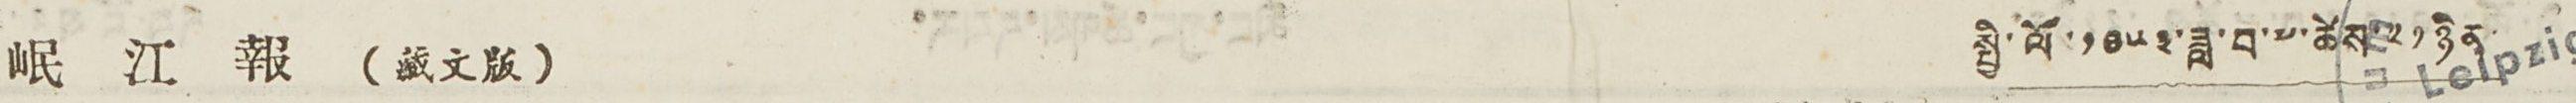岷 江 報 （藏文版） སྤྱི་ལོ་༡༩༥༣་ཟླ་བ་༧་ཚེས་༢༡ཉིན་
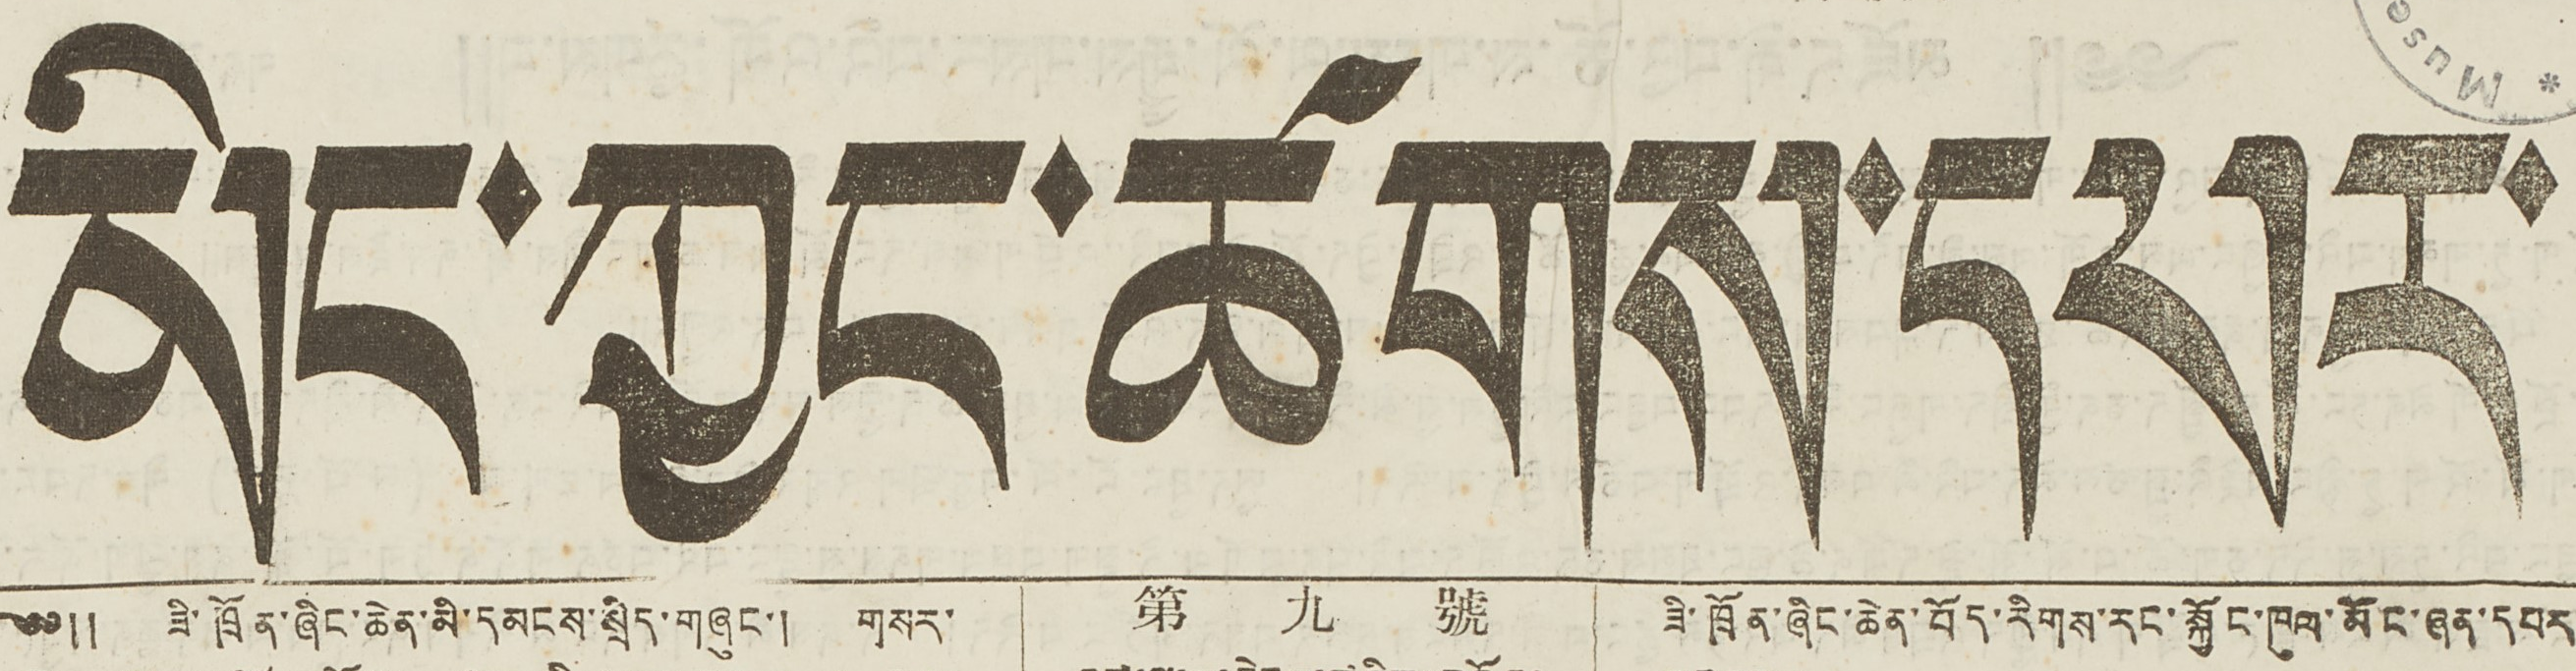མིང་ཀྱང་ཚགས་དཔར་
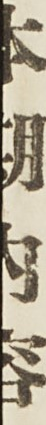本 期 內 容
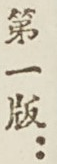第一版：
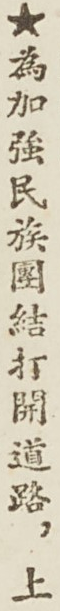★爲加強民族團結打開道路，上
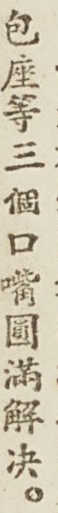包座等三個口嘴圓滿解決
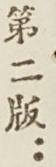第二版：
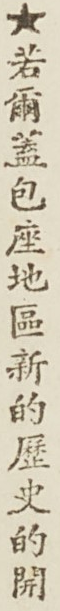★若爾蓋包座地區新的歷史開
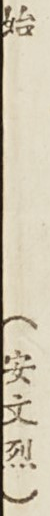始 （安文烈）
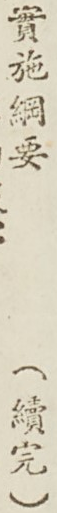實施綱要 （續完）
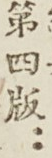第四版：
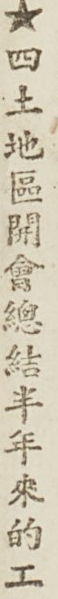★四土地區開會總結半年來的工
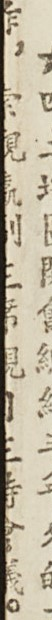作，索觀瀛副主席親自主持會議。
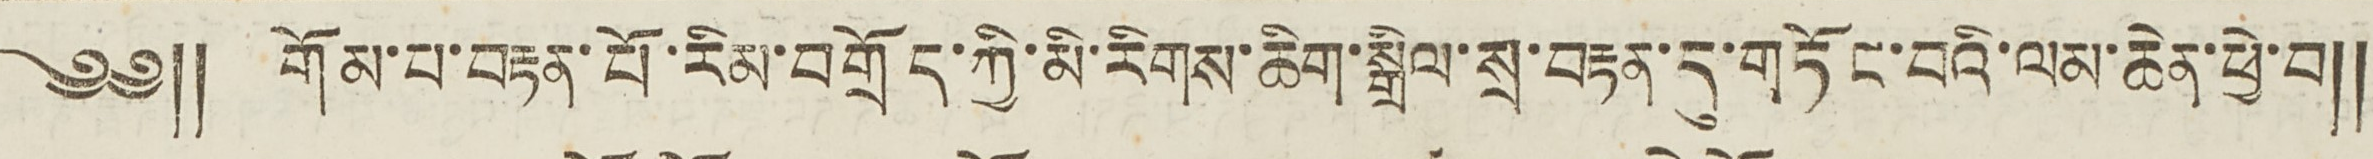༄༅༎ གོམ་པ་བརྟན་པོ་རིམ་བགྲོད་ཀྱི་མི་རིགས་ཆིག་སྒྲིལ་སྲ་བརྟན་དུ་གཏོང་བའི་ལམ་ཆེན་ཕྱེ་བ༎
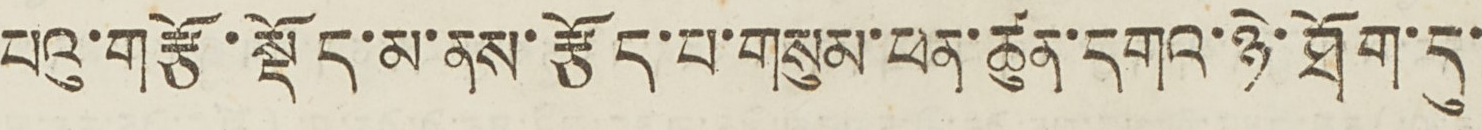པའུ་གརྩོ་སྡོད་མ་ནས་རྩོད་པ་གསུམ་ཕན་ཚུན་དགའ་ཉེ་ཐོག་དུ་
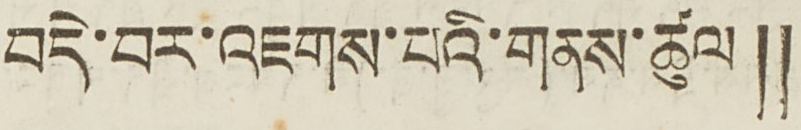བདེ་བར་འཇགས་པའི་གནས་ཚུལ༎
